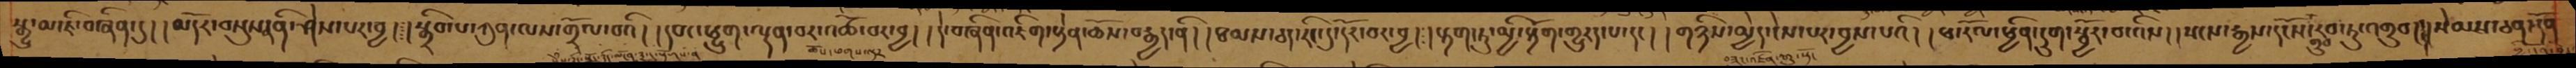སྒྱུ་མ་ཇི་བཞིན་དུ། །མདོར་བསྡུས་ན་ནི་ཤེས་པར་བྱ།༴།སྒྲིབ་པ་ཀུན་ལས་གྲོལ་བའི། །དབང་ཕྱུག་ལྡན་བར་འཚོ་བར་བྱ། །དེ་བཞིན་འཇིག་རྟེན་ཆོས་བརྒྱད་ནི། །ཐམས་ཅད་རིང་དུ་དོར་བར་བྱ། །རྟག་ཏུ་མྱི་རྟོག་གྱུརད་པ་དང། །གཉིས་མྱེད་ངེས་པར་བྱས་པའི། །ཕ་རོལ་ཕྱིན་དྲུག་སྦྱོར་བ་འིས། །སངས་རྒྱས་དངོས་གྲུབ་རབ་ཏུ་འགྲུབ། །སེམས་ཅན་དོན་
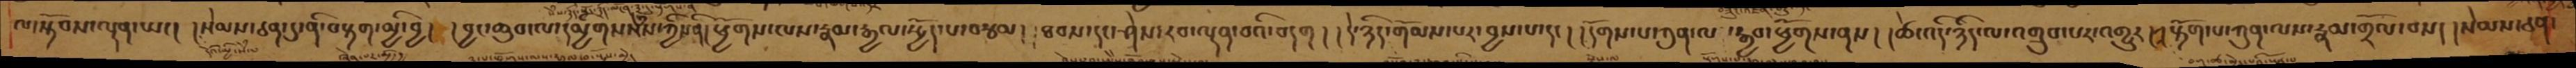ལ་སྟོབས་ལྡན་པ། །སེམས་ཅན་དུ་ནི་བརྟག་མྱི་བྱ། །བྱང་ཆུབ་ལ་དམྱིགསསེཾས་ཀྱིས་ནི། །ཕྱོགས་ལས་རྣམ་རྒྱལ་སྤྱོད་པ་བརྩམ། །ཐབས་དང་ཤེས་རབ་ལྡན་བའི་བདག། །དེ་ཉིད་གོམས་པར་བྱས་པ་དང། །དོགས་པ་ཀུན་ལ་རྒྱབ་ཕྱོགས་ནས། །ཚེ་འདི་ཉིད་ལ་འགྲུབ་པར་འགྱུར། །རྟོག་པ་ཀུན་ལས་རྣམ་གྲོལ་བས། །སེམས་ཅན་
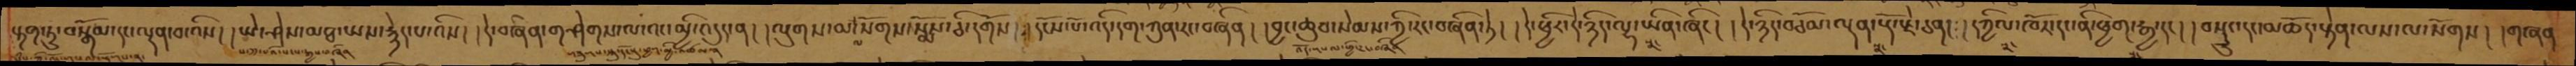རྟག་ཏུ་བསྒོམ་དང་ལྡན་བ་འིས། །ཡེ་ཤེས་མཐ་ཡས་རྙེད་པ་འིས། །དེ་བཞིན་གཤེགས་ལ་འང་མྱི་འདུད་ན། །ལུགས་མ་ལསོགས་སྨོས་ཅི་དགོས། །དངོས་པོ་འདི་དག་ཀུན་རང་བཞིན། །བྱང་ཆུབ་སེམས་ཀྱི་རང་བཞིན་ཏེ། །དེ་ཕྱིར་དེ་ཉིད་ལྷ་ཡིན་ཞིང། །དེ་ཉིད་བཅོམ་ལྡན་རྡོ་རྗེ་ཅན། །དཀྱིལ་འཁོར་དང་ནི་ཕྱག་རྒྱ་དང། །བསྲུང་དང་མཆོད་རྟེན་ལས་ལ་སོགས། །གཞན
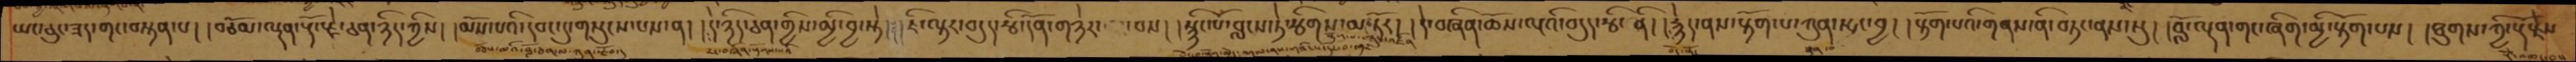ཡང་ཅུང་ཟད་གང་བསྟན་པ། །བཅོམ་ལྡན་རྡོ་རྗེ་ཅན་ཉིད་ཀྱིས། །མོས་པའི་དབང་དུ་གསུངས་པས་ན། །དེ་ཉིད་ཅན་གྱིས་མྱི་བྱ་སྟེ། །ཇི་ལྟར་བདུད་རྩི་དོན་གཉེར་བས། །སྙིང་པོ་བླངས་ཏེ་སྩིགས་མ་ཏོར། །དེ་བཞིན་ཆོས་ལྔའི་བདུད་རྩི་ནི། །རྙེད་ནས་རྟོག་པ་ཀུན་སྤང་བྱ། །རྟོག་པའི་གནས་ནི་བཏང་ནས་སུ། །བློ་ལྡན་གང་ཞིག་མྱི་རྟོག་པས། །ཐུགས་ཀྱི་རྡོ་རྗེས
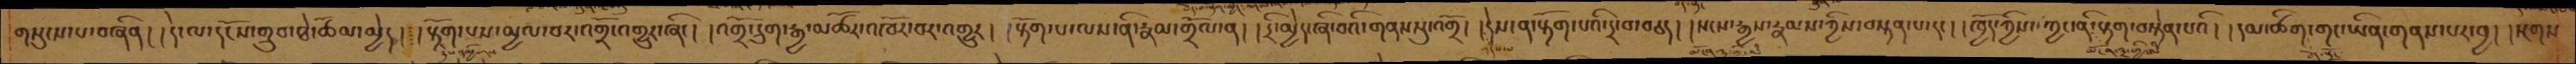གསུངས་པ་བཞིན། །དེ་ལ་དངོས་གྲུབ་ཐེ་ཚོམ་མྱེད། །རྟོག་པས་མྱལ་བར་འགྲོ་འགྱུར་ཞིང། །འགྲོ་དྲུག་རྒྱ་མཚོར་འཁོར་བར་འགྱུར། །རྟོག་པ་ལས་ནི་རྣམ་གྲོལ་ན། །དྲི་མྱེད་ཞི་བའི་གནསསུ་འགྲོ། །དེས་ན་རྟོག་པའི་དྲ་བ་བཅད། །སངས་རྒྱས་རྣམས་ཀྱིས་བསྟན་པ་དང། །ཁྱོད་ཀྱིས་ཀྱང་ནི་རྟག་བསྟེན་པའི། །དམ་ཚིག་གང་ཡིན་གནས་པར་བྱ། །སྔགས
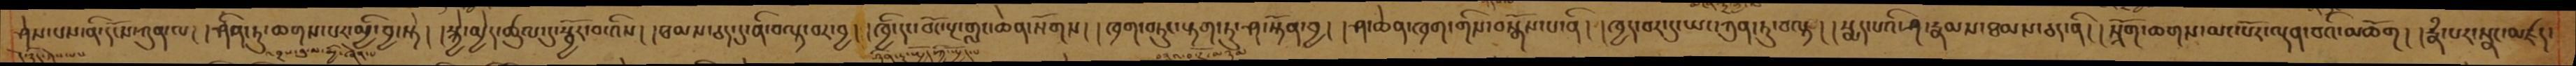ཤེས་པས་ནི་དངོས་ཀུན་ལ། །ཤིན་ཏུ་ཆགས་པར་མྱི་བྱ་སྟེ། །སྐྱེ་མྱེད་ཚུལ་དུ་སྦྱོར་བ་འིས། །ཐམས་ཅད་དུ་ནི་བལྟ་བར་བྱ། །ཁྱི་དང་བོང་རྔ་གླང་ཆེན་སོགས། །ཁྲག་བཏུང་རྟག་ཏུ་ཤ་སྟོན་བྱ། །ཤ་ཆེན་ཁྲག་གིས་བསྒོས་པ་ནི། །ཁྱད་པར་དུ་ཡང་ཀུན་ཏུ་བལྟ། །སྨད་པའི་ཤ་རྣམས་ཐམས་ཅད་ནི། །སྲོག་ཆགས་མང་པོར་ལྡན་བའི་མཆོག། །རྣཾ་པར་སྣང་མཛད
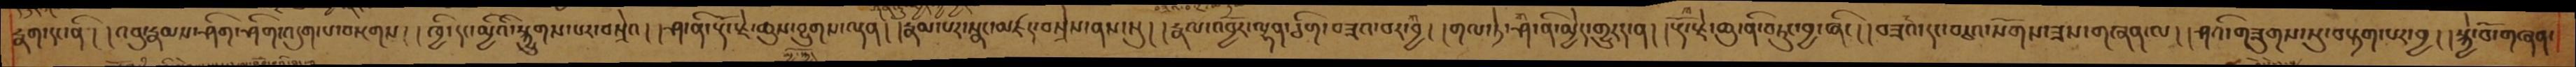རྣག་དང་ནི། །འབུ་རྣམས་ཤིག་ཤིག་འདུག་པ་བསྔགས། །ཁྱི་དང་མྱིའི་སྐྱུགས་པར་བསྲེའ། །ཤ་ནི་རྡོ་རྗེ་ཆུས་བྱུགས་ལྡན། །རྣམ་པར་སྣང་མཛད་བསྲེས་ནས་སུ། །རྣལ་འབྱོར་ལྷན་ཅིག་བཟའ་བར་བྱ། །གལ་ཏེ་ཤི་ནི་མྱེད་གྱུརད་ན། །རྡོ་རྗེ་ཆུ་ནི་བཏུང་བྱ་ཞིང། །བཟའ་དང་བཅའ་སོགས་ཟས་གཞན་ལ། །ཤའི་གཟུགས་སུ་བརྟག་པར་བྱ། །སྐྱེ་བོ་གཞན་
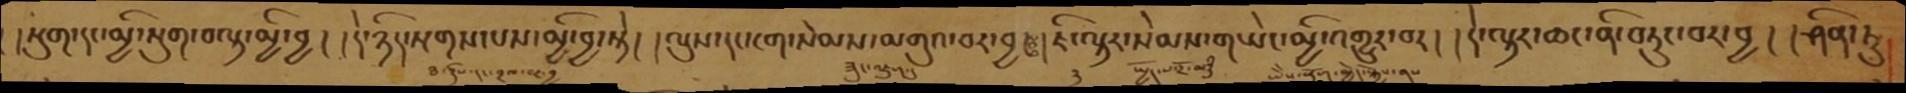།སྡུག་དང་མྱི་སྡུག་བལྟ་མྱི་བྱ། །དེ་ཉིད་སྔགས་པས་མྱི་བྱ་སྟེ། །ལུས་དང་ངག་སེམས་མགུའ་བར་བྱ། ཿ  །ཇི་ལྟར་སེམས་གཡེང་མྱི་འགྱུར་བར། །དེ་ལྟར་ཆང་ནི་བཏུང་བར་བྱ། །ཤིན་ཏུ
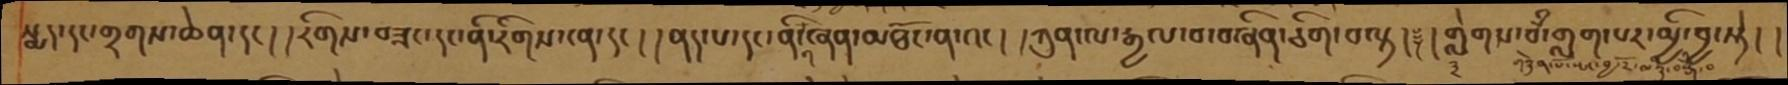སྨད་དང་གྲགས་ཆེན་དང། །རིགས་བཟང་དང་ནི་རིགས་ངན་དང། །ནད་པ་དང་ནི་གཞན་མཐོང་ན་འང། །ཀུན་ལ་རྒྱལ་བ་བཞིན་ཅིག་བལྟ། ༈ །གླེགས་བྃ་གླག་པར་མྱི་བྱ་སྟེ། །
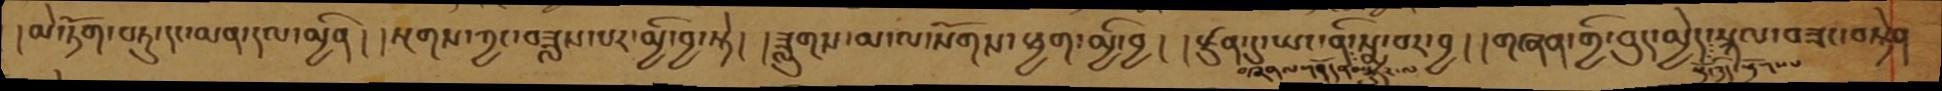།མེ་ཏོག་བཏུ་དང་མན་དལ་མྱིན། །སྔགས་ཀྱང་བཟླས་པར་མྱི་བྱ་སྟེ། །ཟླུགས་མ་ལ་སོགས་ཕྱག་མྱི་བྱ། །རྫུན་དུ་ཡང་ནི་སྨྲ་བར་བྱ། །གཞན་གྱི་བུད་མྱེད་སྐལ་བཟང་བསྟེན
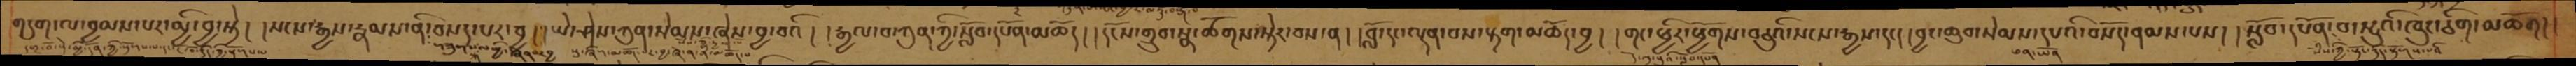གདུག་ལ་བྱམས་པར་མྱི་བྱ་སྟེ། །སངས་རྒྱས་རྣམས་ནི་བསད་པར་བྱ། །ཡེ་ཤེས་ཀུན་སེམས་ཞེས་བྱ་བའི། །རྒྱལ་བ་ཀུན་ཀྱི་སློབ་དཔོན་མཆོད། །དངོས་གྲུབ་སྣ་ཚོགས་སྟེར་བས་ན། །བློ་དང་ལྡན་པས་རྟག་མཆོད་བྱ། །གང་ཕྱིར་ཕྱོགས་བཅུའི་སངས་རྒྱས་དང། །བྱང་ཆུབ་སེམས་དཔའི་བསོད་ནམས་པས། །སློབ་དཔོན་བ་སྤུའི་ཁུང་ཅིག་མཆོག།
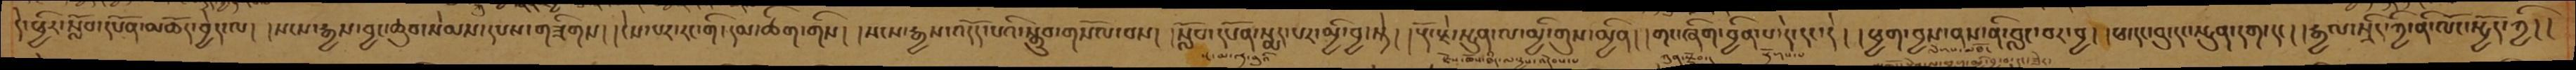དེ་ཕྱིར་སློབ་དཔོན་མཆོད་བྱེད་ལ། །སངས་རྒྱས་བྱང་ཆུབ་སེམས་དཔས་གཟིགས། །ངེས་པར་རང་གི་དམ་ཚིག་གིས། །སངས་རྒྱས་འདོད་པའི་སྒྲུབ་གསོལ་བས། །སློབ་དཔོན་སྨད་པར་མྱི་བྱ་སྟེ། །རྡོ་རྗེ་སྤུན་ལ་མྱི་གུས་མྱིན། །གང་ཞིག་བྱིན་པ་དེ་དང་དེ། །ཕྱག་བྱས་ནས་ནི་བླང་བར་བྱ། །ཕ་དང་བུ་དང་སྤུན་དག་དང། །རྒྱལ་སྲིད་ཀྱི་ནི་ལོང་སྤྱོད་ཀྱི། །
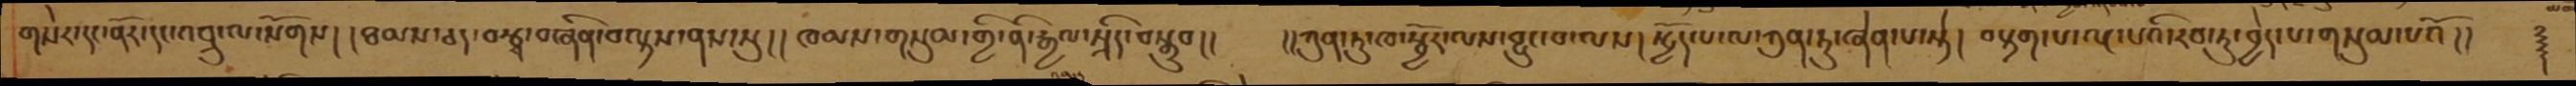གསེར་དང་ནོར་དང་འབྲུ་ལ་སོགས། །ཐམས་ཅད་བརྩྭ་བཞིན་བལྟས་ནས་སུ། །ཁམས་གསུམ་གྱི་ནི་རྒྱལ་སྲིད་བསྒྲུབ།།   །།ཀུན་ཏུ་ཁ་སྦྱོར་ལས་བྱུང་བ་ལས། སྤྱོད་པ་ལ་ཀུན་ཏུ་ཞེན་པ་སྟེ། །བརྟག་པ་ལྔ་པའི་རབ་ཏུ་བྱེད་པ་གསུམ་པའོ།། ༈
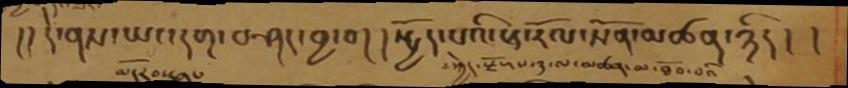།།དེ་ནས་ཡང་དག་བཤད་བྱ་བ། །སྤྱོད་པའི་ཕ་རོལ་སོན་མཚན་ཉིད། །
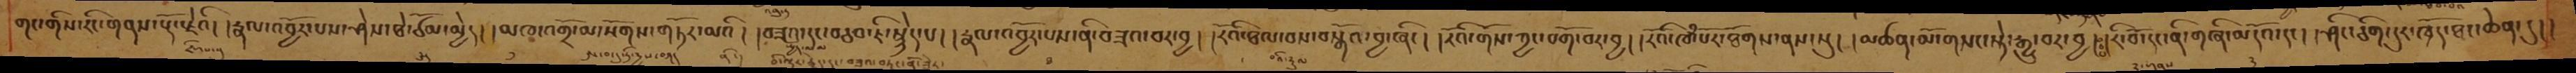གང་གིས་རིང་གནས་རྡོ་རྗེའི། །རྣལ་འབྱོར་པས་ཤེས་ཐེ་ཙོམ་མྱེད། །མཁ་འགྲོ་མ་སོགས་གཏོར་མའི། །བཟའ་དང་བཅབ་ཇི་སྙེད་པ། །རྣལ་འབྱོར་པས་ནི་བཟའ་བར་བྱ། །རོའི་ཐལ་བས་བསྒོའ་བྱ་ཞིང། །རོའི་གོས་ཀྱང་བགོ་བར་བྱ། །རོའི་ཁཾ་པོར་ཐོགས་ནས་སུ། །མཚན་མོ་གསང་ཏེ་རྒྱུ་བར་བྱ།༴།རི་བོ་དང་ནི་གཞི་མདོའ་དང། །ཤིང་ཅིག་དུར་ཁྲོད་ཐང་ཆེན་དུ། །
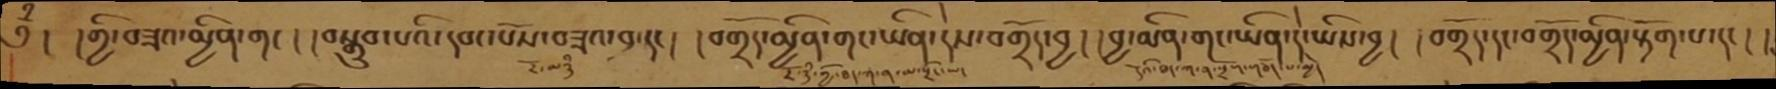༄ྃ། །གྱི་བཟའ་མྱིན་གང། །བསྒྲུབ་པའི་དབང་པོས་བཟའ་བ་དང། །བགྲོད་མྱིན་གང་ཡིན་དེས་བགྲོད་བྱ། །བྱ་མིན་གང་ཡིན་དེ་ཡིས་བྱ། །བགྲོད་དང་བགྲོད་མྱིན་རྟོག་པ་དང། །
